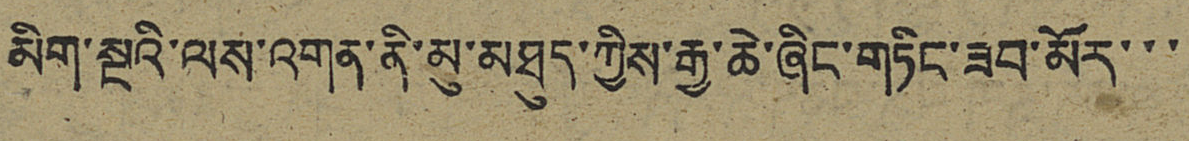མིག་སྔའི་ལས་འགན་ནི་མུ་མཐུད་ཀྱིས་རྒྱ་ཆེ་ཞིང་གཏིང་ཟབ་མོར་་་
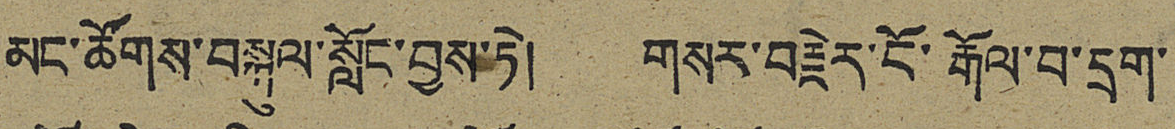མང་ཚོགས་བསྐུལ་སློང་བྱས་ཏེ། གསར་བརྗེར་ངོ་རྒོལ་བ་དྲག་
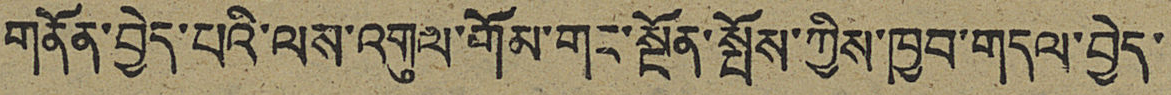གནོན་བྱེད་པའི་ལས་འགུལ་གོམ་གང་སྔོན་སྤོས་ཀྱིས་ཁྱབ་གདལ་བྱེད་
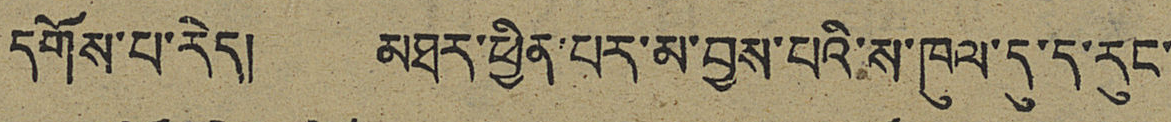དགོས་པ་རེད། མཐར་ཕྱིན་པར་མ་བྱས་པའི་ས་ཁུལ་དུ་ད་རུང་
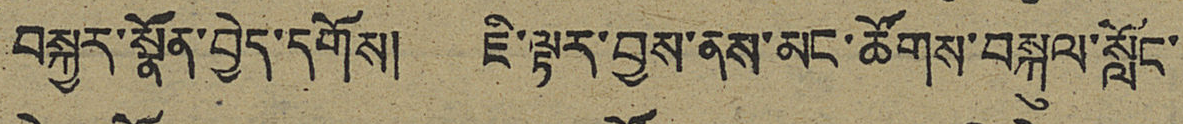བསྐྱར་སྣོན་བྱེད་དགོས། ཇི་ལྟར་བྱས་ནས་མང་ཚོགས་བསྐུལ་སློང་
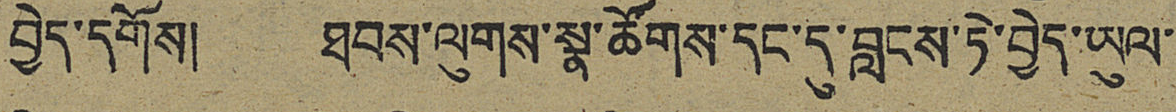བྱེད་དགོས། ཐབས་ལུགས་སྣ་ཚོགས་དང་དུ་བླངས་ཏེ་བྱེད་ཡུལ་
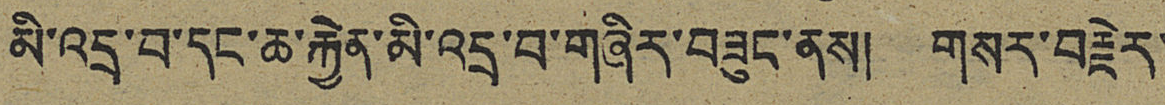མི་འདྲ་བ་དང་ཆ་རྐྱེན་མི་འདྲ་བ་གཞིར་བཟུང་ནས། གསར་བརྗེར་
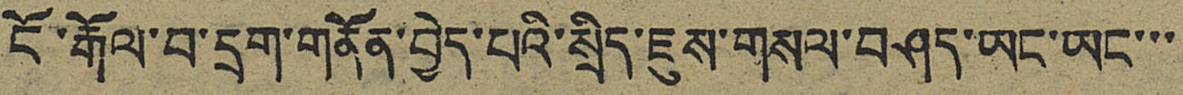ངོ་རྒོལ་བ་དྲག་གནོན་བྱེད་པའི་སྲིད་ཇུས་གསལ་བཤད་ཡང་ཡང་་་
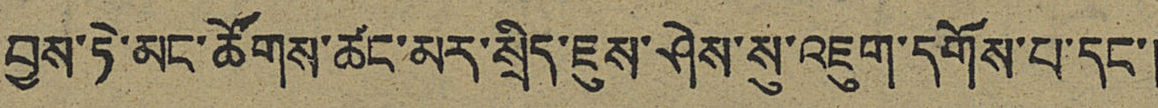བྱས་ཏེ་མང་ཚོགས་ཚང་མར་སྲིད་ཇུས་ཤེས་སུ་འཇུག་དགོས་པ་དང་།
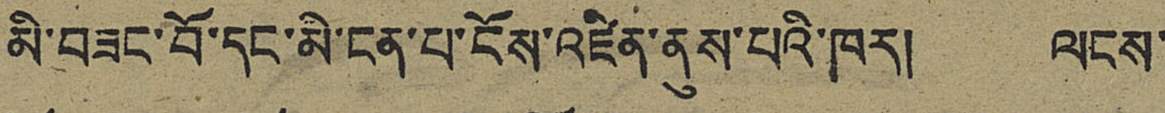མི་བཟང་བོ་དང་མི་ངན་པ་ངོས་འཛིན་ནུས་པའི་ཁར། ལངས་
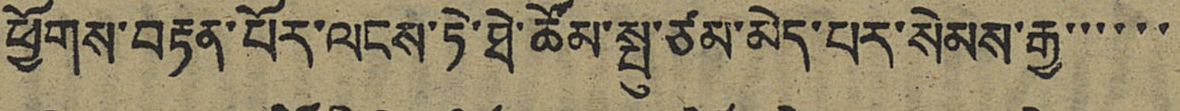ཕྱོགས་བརྟན་པོར་ལངས་ཏེ་ཐེ་ཚོམ་སྤུ་ཙམ་མེད་པར་སེམས་རྒྱ་་་་་་
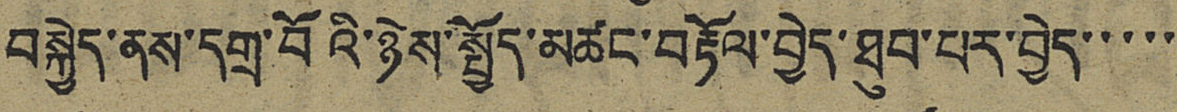བསྐྱེད་ནས་དགྲ་བོའི་ཉེས་སྤྱོད་མཚང་བརྟོལ་བྱེད་ཐུབ་པར་བྱེད་་་་་
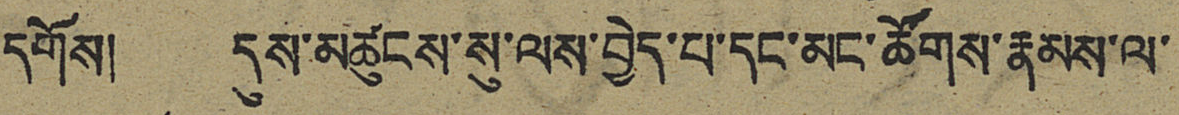དགོས། དུས་མཚུངས་སུ་ལས་བྱེད་པ་དང་མང་ཚོགས་རྣམས་ལ་
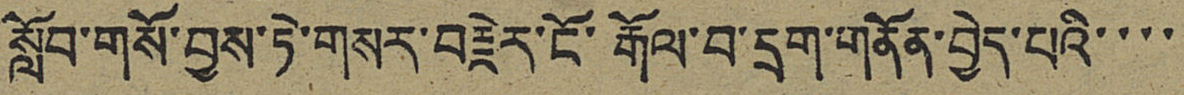སློབ་གསོ་བྱས་ཏེ་གསར་བརྗེར་ངོ་རྒོལ་བ་དྲག་གནོན་བྱེད་པའི་་་་
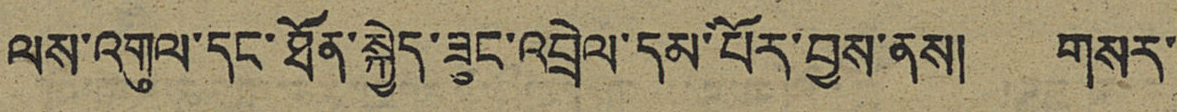ལས་འགུལ་དང་ཐོན་སྐྱེད་ཟུང་འབྲེལ་དམ་པོར་བྱས་ནས། གསར་
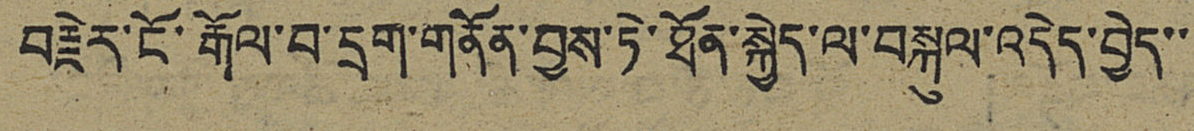བརྗེར་ངོ་རྒོལ་བ་དྲག་གནོན་བྱས་ཏེ་ཐོན་སྐྱེད་ལ་བསྐུལ་འདེད་བྱེད་་
